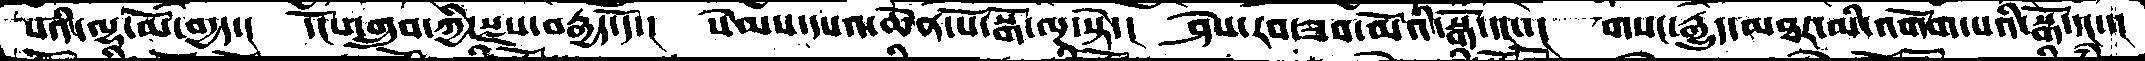པའི་ལྷ་མོ་བདྱད་།   དངོས་གྲུབ་ཀྱི་སྫས་བརྒྱད་དོ་།  སེམས་དཔའ་ཆེན་པོ་སྒོ་ལྔ་སྟེ་།  ཤེས་རབ་ཟབ་མོའི་སྒོ་དང་་།  གསང་རྒྱུད་མཐར་མི་འགོག་པའི་སྒོ་དང་་།
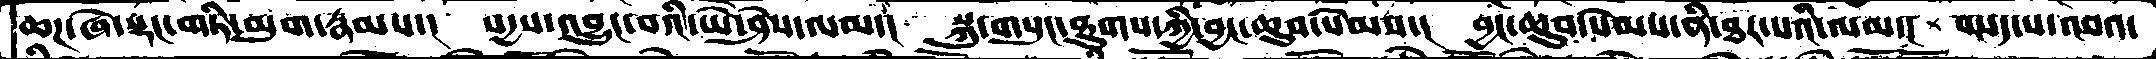ཆཌ་ཞེ་སྡང་གཏི་མུག་རྣམས་།  སདྱས་འབྱུང་བའི་ཡེ་ཤེས་ལམ་། སྐུ་གསུང་ཐུགས་ཀྱི་བྱང་ཆུབ་སེམས་། བྱང་ཆུབ་སེམས་ནི་ཐར་པའི་ལམ་། བསད་པ་འབའ་
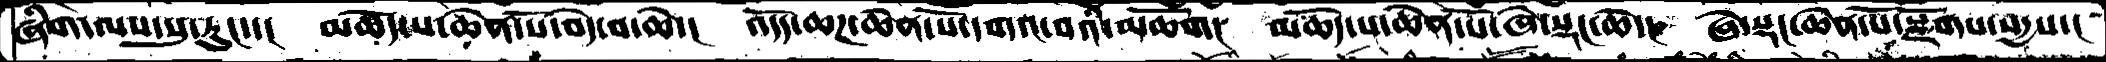ཞིག་ལས་སུ་རུང་་།  མཆོད་པ་ཆེན་པོ་བདེ་བ་ཆེ་།  འདོད་ཆཌ་ཆེན་པོ་དགའ་བའི་མཆོག།  མཆོད་པ་ཆེན་པོ་ཞེ་སྡང་ཆེ་།   ཞེ་སྡང་ཆེན་པོ་སྫོགས་སདྱས་
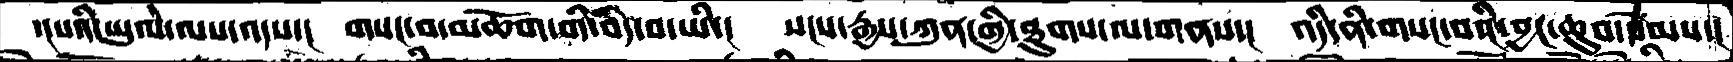ད།པའི་ཡུལ་ལས་འདས་།  གསང་བ་མཆོག་གི་བདེ་བ་ཡི་།  སངས་རྒྱས་ཀུན་གྱི་ཐུགས་ལ་གནས་།  འདི་ནི་གསང་བའི་བྱང་ཆུབ་སེམས་།
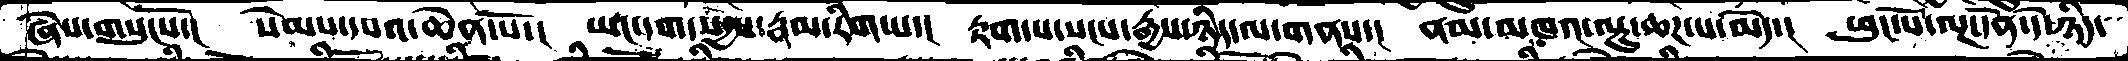ཞེས་གསུངསོ་།  སེམས་དཔའ་ཆེན་པོ་།  ཡང་དག་སདྱས་རྣམ་རིག་པ་།  རྟག་པ་སངས་རྒྱས་ཉིད་ལ་གནས་།  ནམ་མཁའ་ལྟུ་ཆཌ་པ་མེད་།  ཕུང་པོ་ལྔ་ནི་དེ་ཉིད་
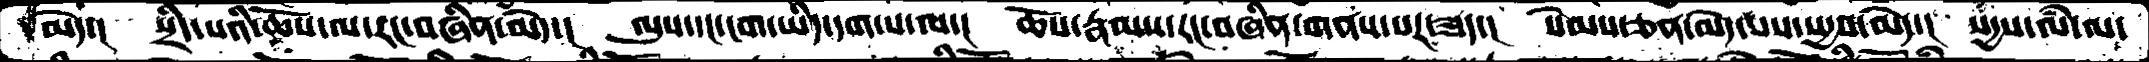མེད་།  སྲིད་པའི་ཆོས་ལ་རང་བཞིན་མེད་། ལུས་དང་ངག་ཡིད་དག་པ་ལ་།  ཆོས་རྣམས་རང་བཞིན་གནས་པར་ཟད་། སེམསཅན་མེད་པས་སདྱས་མེད་།  སདྱས་ལཾ་ལ
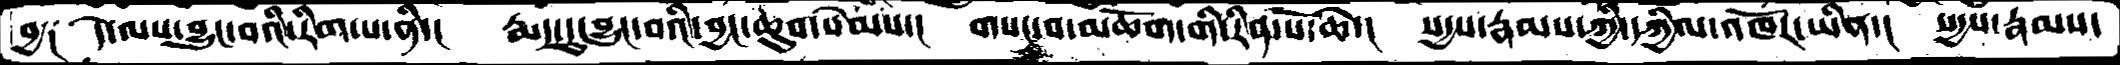བྱ༑   དེ་ལས་བྱུང་བའི་རིག་པ་ནི་།  རྨད་དུ་བྱུང་བའི་བྱང་ཆུབ་སེམས་།  གསང་བ་མཆོག་གི་རིན་པོ་ཆེ་།  སདྱས་རྣམས་ཀྱི་དཀྱིལ་འཁོར་ཡིན་།  སདྱས་རྣམས་
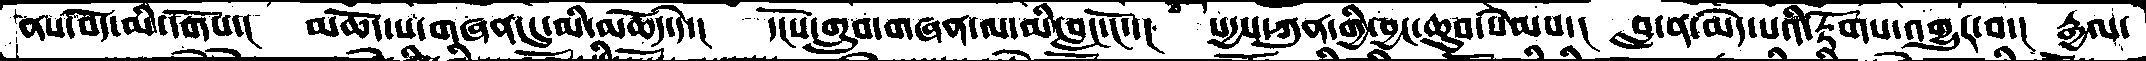ནས་བོད་མི་དགོས་།   མཆོད་པ་གཞན་དུ་མི་མཆོད་དེ་།  དངོས་གྲུབ་གཞན་ལ་མི་བླང་ངོ་་།   སདྱས་ཀུན་གྱི་བྱང་ཆུབ་སེམས་།  བླ་ན་མེད་པའི་རྟོགས་འགྱུར་བ་།  རྒྱལ་
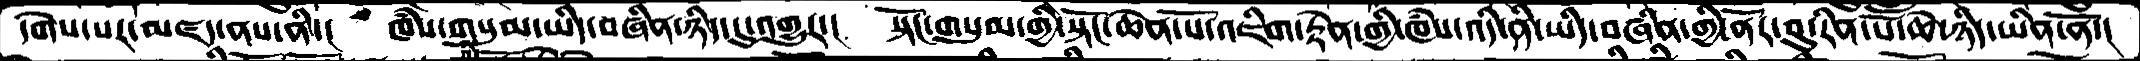དགེས་པར་མཛད་ནས་ནི་།  ཁཾས་གསུམ་ཡིད་བཞིན་ཉིད་དུ་འགྱུར་།   སྟོང་གསུམ་གྱི་སྟོང་ཆེན་པོ་འཇིག་རྟེན་གྱི་ཁཾས་འདི་ནི་ཡིད་བཞིན་གྱི་ནོར་བུ་རིན་པོ་ཆེ་ཉིད་ཡིན་ནོ་།
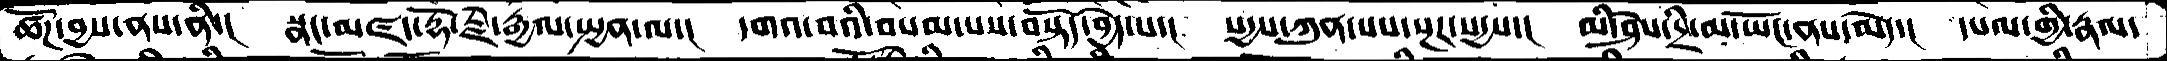ཚོཌ་བྱས་ནས་ནི་།   སྣང་མཛད་རྡོ་རྗེ་རྒྱལ་སྤྱན་ལ་།  དགའ་བའི་བསམ་པས་བསྟོད་བྱེད་པ་།  སདྱས་ཀུན་པས་སྔར་སདྱས་།  མི་ཤེས་དྲི་མ་ཡོང་ནས་མེད་།  དཔལ་གྱི་རྣལ་
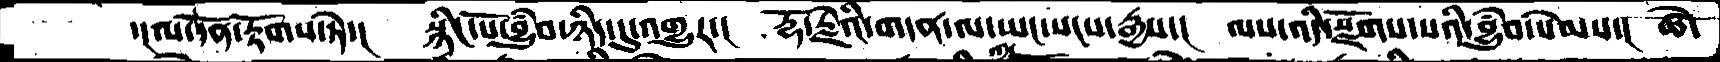་།ལ་དོན་རྟོགས་ཏེ་།   སྙིང་པོ་བྱུཾབ་ཉིད་དུ་འགྱུར་།   རྡོ་རྗེའི་གདན་ལ་ཡང་སངས་རྒྱས་།  ལས་འདི་སྫོགས་པའི་བྱུཾབ་སེམས་།  ཚེ་
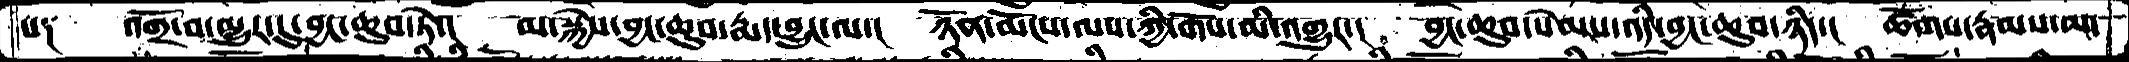པ༑   འགྲོ་བ་མྱུར་དུ་བྱང་ཆུབ་ཏེ་།   མ་སྐྱེས་བྱང་ཆུབ་རྨད་བྱུང་ལ་།  ཉོན་མོངས་ལས་ཀྱི་གོས་མི་འགྱུར་།  བྱང་ཆུབ་སེམས་འདི་བྱང་ཆུབ་ཉིད་།  ཚོགས་རྣམས་མ་
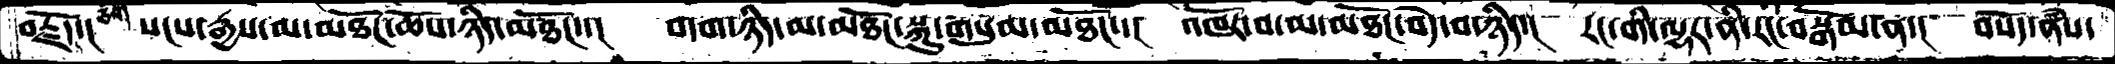བརྗོད་།  སངས་རྒྱས་མ་མཐོང་ཆོས་ཉིད་མཐོང་་།  བདག་ཉིད་མ་མཐོང་སྐུ་གསུམ་མཐོང་་།  འཁོར་བ་མ་མཐོང་བདེ་བ་ཉིད་།  རང་གི་ལྷར་ནི་རང་བསྒོམ་ན་།  བསོད་ནཾས་
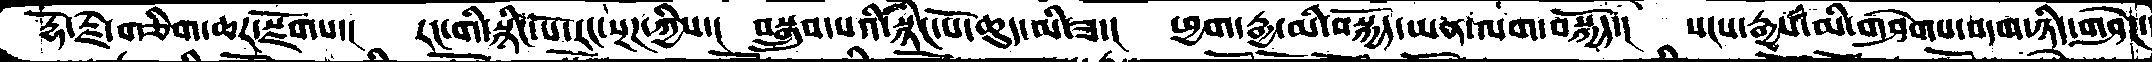རྡོ་རྗེ་གཅིག་ཆར་སྫོགས་།   རང་གི་སྙིང་པོ་རང་སྔཌ་ཀྱིས་།  བསྒྲུབ་པའི་སྙིང་པོ་ཆུད་མི་ཟ་།  ཕྱག་རྒྱ་མི་བསྐྱོད་ཡན་ལག་བསྐྱོད་།   སངས་རྒྱས་མི་གཤེགས་བདག་ཉིད་གཤེཌ་
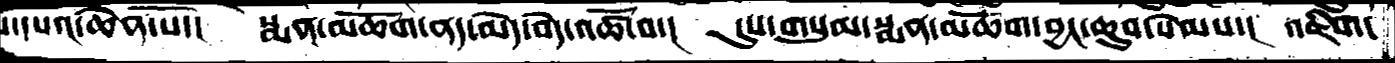་་དཔའ་ཆེན་པོ་།  སྨན་མཆོག་ནད་མེད་བདེ་འཚོ་བ་།  དུས་གསུམ་སྨན་མཆོག་བྱང་ཆུབ་སེམས་།  འཇིག་
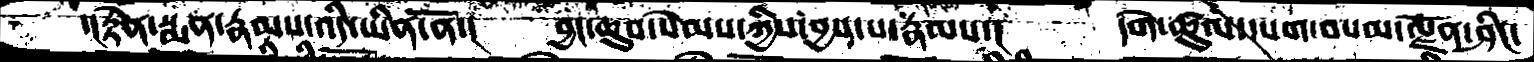་།རྟེན་སྨན་རྣམས་འདི་ཡིན་ནོ་།   བྱང་ཆུབ་སེམས་ཀྱིས་བྱས་པ་རྣམས་།  དགེ་ཚུལ་དཔག་བསམ་ལྗོན་ཤིང་
